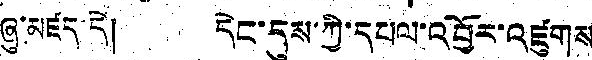ཞུ་མཛད་དེ། དེང་དུས་ཀྱི་དཔལ་འབྱོར་འཛུགས
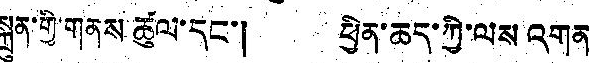སྐྲུན་གྱི་གནས ཚུལ་དང་། ཕྱིན་ཆད་ཀྱི་ལས འགན
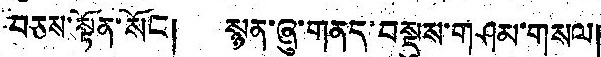བཅས་སྟོན་སོང་། སྙན་ཞུ་གནད་བསྡུས་གཤམ་གསལ།
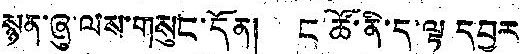སྙན་ཞུ ལས་གསུང་དོན། ང ཚོ་ནི་ད་ལྟ དབྱར
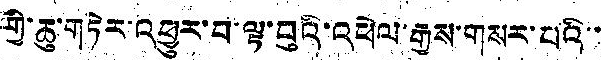གྱི་ཆུ་གཏེར་འཕྱུར་བ་ལྟ་བུའི་འཕེལ་རྒྱས་གསར་པའི་་
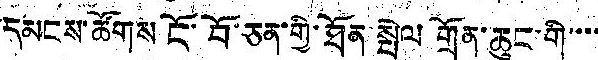དམངས་ཚོགས ངོ་བོ་ཅན་གྱི་ཐོན སྤེལ གྲོན་ཆུང་གི་་་་
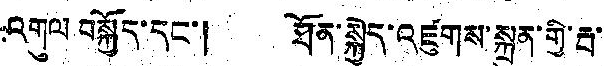འགུལ བསྐྱོད་དང་། ཐོན་སྐྱེད་འཛུགས་སྐྲུན་གྱི་རྦ་
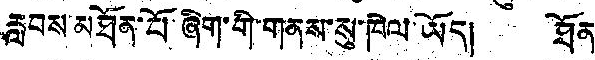རླབས་མཐོན་པོ་ཞིག་གི་གནས་སུ་ཁེལ་ཡོད། ཐོན་
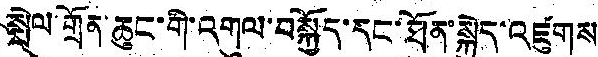སྤེལ་གྲོན་ཆུང་གི་འགུལ་བསྐྱོད་དང་ཐོན་སྐྱེད་འཛུགས་
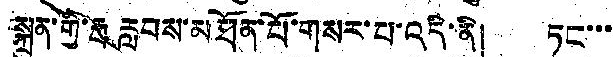སྐྲུན་གྱི་རྦ རླབས་མཐོན་པོ་གསར་པ་འདི་ནི། ཏང་་་
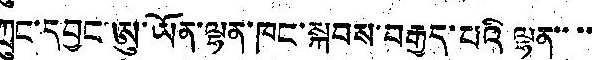ཀྲུང་དབྱང་ཨུ་ཡོན་ལྷན་ཁང་སྐབས་བརྒྱད་པའི་ལྷན་་་་
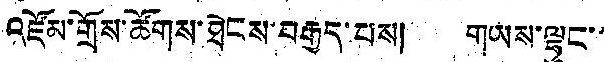འཛོམ་གྲོས་ཚོགས་ཐེངས་བརྒྱད་པས། གཡས་ལྷུང་་
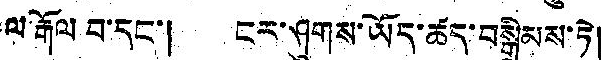ལ་རྒོལ བ་དང་། ངར་ཤུགས་ཡོད་ཚད་བསྒྲིམས་ཏེ།
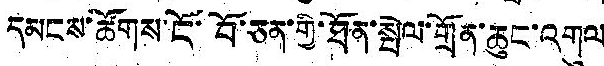དམངས་ཚོགས་ངོ་བོ་ཅན་གྱི་ཐོན་སྤེལ་གྲོན་ཆུང་འགུལ
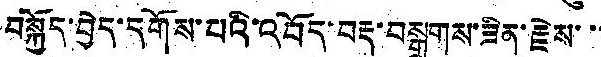བསྐྱོད་བྱེད་དགོས་པའི་འབོད་བརྡ་བསྒྲགས་ཟིན་རྗེས་་་
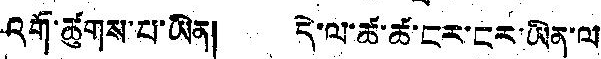འགོ་ཚུགས་པ་ཡིན། དེ་ལ་ཚ་ཚ་ངར་ངར་ཡིན་ལ་
